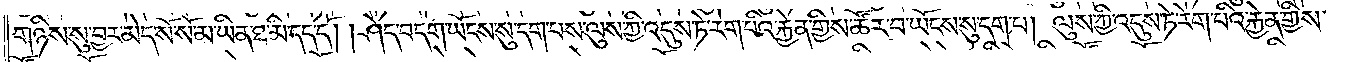གཉིས་སུ་བྱར་མེད་སོ་སོ་མ་ཡིན་ཐ་མི་དད་དོ། །ཤེད་བདག་ཡོངས་སུ་དག་པས་ལུས་ཀྱི་འདུས་ཏེ་རེག་པའི་རྐྱེན་གྱིས་ཚོར་བ་ཡོངས་སུ་དག་པ། ལུས་ཀྱི་འདུས་ཏེ་རེག་པའི་རྐྱེན་གྱིས་
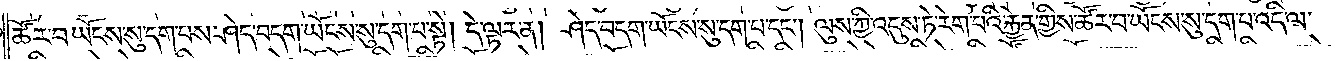ཚོར་བ་ཡོངས་སུ་དག་པས་ཤེད་བདག་ཡོངས་སུ་དག་པ་སྟེ། དེ་ལྟར་ན། ཤེད་བདག་ཡོངས་སུ་དག་པ་དང༌། ལུས་ཀྱི་འདུས་ཏེ་རེག་པའི་རྐྱེན་གྱིས་ཚོར་བ་ཡོངས་སུ་དག་པ་འདི་ལ་
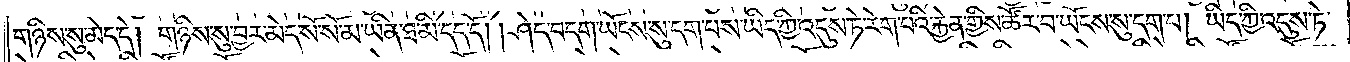གཉིས་སུ་མེད་དེ། གཉིས་སུ་བྱར་མེད་སོ་སོ་མ་ཡིན་ཐ་མི་དད་དོ། །ཤེད་བདག་ཡོངས་སུ་དག་པས་ཡིད་ཀྱི་འདུས་ཏེ་རེག་པའི་རྐྱེན་གྱིས་ཚོར་བ་ཡོངས་སུ་དག་པ། ཡིད་ཀྱི་འདུས་ཏེ་
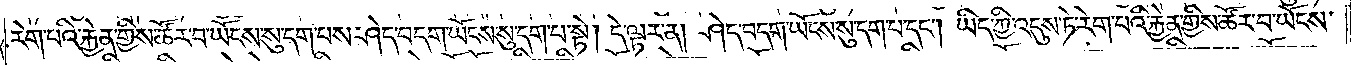རེག་པའི་རྐྱེན་གྱིས་ཚོར་བ་ཡོངས་སུ་དག་པས་ཤེད་བདག་ཡོངས་སུ་དག་པ་སྟེ། དེ་ལྟར་ན། ཤེད་བདག་ཡོངས་སུ་དག་པ་དང༌། ཡིད་ཀྱི་འདུས་ཏེ་རེག་པའི་རྐྱེན་གྱིས་ཚོར་བ་ཡོངས་
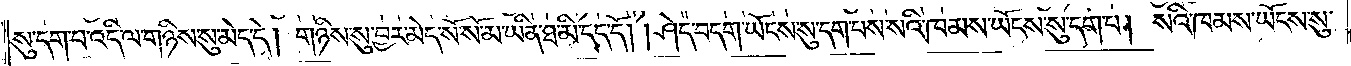སུ་དག་པ་འདི་ལ་གཉིས་སུ་མེད་དེ། གཉིས་སུ་བྱར་མེད་སོ་སོ་མ་ཡིན་ཐ་མི་དད་དོ། །ཤེད་བདག་ཡོངས་སུ་དག་པས་སའི་ཁམས་ཡོངས་སུ་དག་པ། སའི་ཁམས་ཡོངས་སུ་
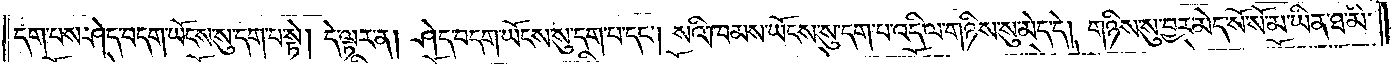དག་པས་ཤེད་བདག་ཡོངས་སུ་དག་པ་སྟེ། དེ་ལྟར་ན། ཤེད་བདག་ཡོངས་སུ་དག་པ་དང༌། སའི་ཁམས་ཡོངས་སུ་དག་པ་འདི་ལ་གཉིས་སུ་མེད་དེ། གཉིས་སུ་བྱར་མེད་སོ་སོ་མ་ཡིན་ཐ་མི་
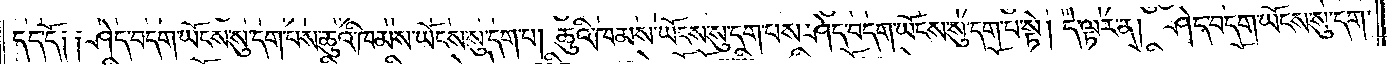དད་དོ༑ ༑ཤེད་བདག་ཡོངས་སུ་དག་པས་ཆུའི་ཁམས་ཡོངས་སུ་དག་པ། ཆུའི་ཁམས་ཡོངས་སུ་དག་པས་ཤེད་བདག་ཡོངས་སུ་དག་པ་སྟེ། དེ་ལྟར་ན། ཤེད་བདག་ཡོངས་སུ་དག་
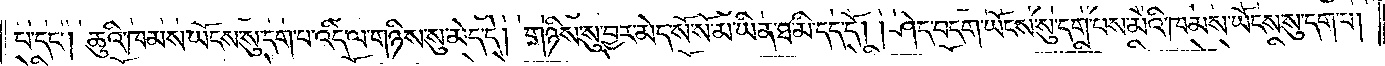པ་དང༌། ཆུའི་ཁམས་ཡོངས་སུ་དག་པ་འདི་ལ་གཉིས་སུ་མེད་དེ། གཉིས་སུ་བྱར་མེད་སོ་སོ་མ་ཡིན་ཐ་མི་དད་དོ། །ཤེད་བདག་ཡོངས་སུ་དག་པས་མེའི་ཁམས་ཡོངས་སུ་དག་པ།
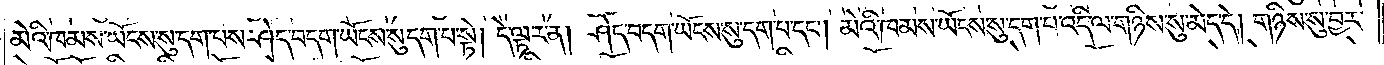མེའི་ཁམས་ཡོངས་སུ་དག་པས་ཤེད་བདག་ཡོངས་སུ་དག་པ་སྟེ། དེ་ལྟར་ན། ཤེད་བདག་ཡོངས་སུ་དག་པ་དང༌། མེའི་ཁམས་ཡོངས་སུ་དག་པ་འདི་ལ་གཉིས་སུ་མེད་དེ། གཉིས་སུ་བྱར་
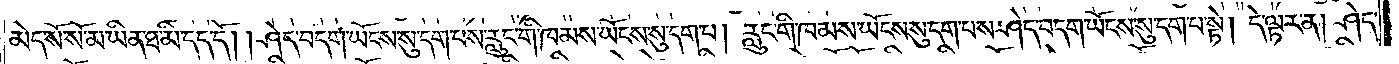མེད་སོ་སོ་མ་ཡིན་ཐ་མི་དད་དོ། །ཤེད་བདག་ཡོངས་སུ་དག་པས་རླུང་གི་ཁམས་ཡོངས་སུ་དག་པ། རླུང་གི་ཁམས་ཡོངས་སུ་དག་པས་ཤེད་བདག་ཡོངས་སུ་དག་པ་སྟེ། དེ་ལྟར་ན། ཤེད་
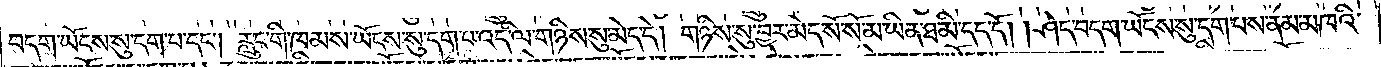བདག་ཡོངས་སུ་དག་པ་དང༌། རླུང་གི་ཁམས་ཡོངས་སུ་དག་པ་འདི་ལ་གཉིས་སུ་མེད་དེ། གཉིས་སུ་བྱར་མེད་སོ་སོ་མ་ཡིན་ཐ་མི་དད་དོ། །ཤེད་བདག་ཡོངས་སུ་དག་པས་ནམ་མཁའི་
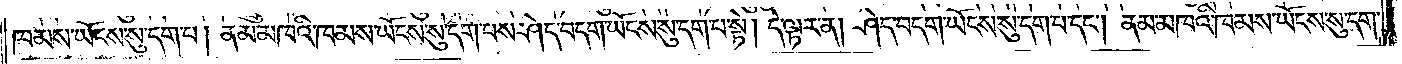ཁམས་ཡོངས་སུ་དག་པ། ནམ་མཁའི་ཁམས་ཡོངས་སུ་དག་པས་ཤེད་བདག་ཡོངས་སུ་དག་པ་སྟེ། དེ་ལྟར་ན། ཤེད་བདག་ཡོངས་སུ་དག་པ་དང༌། ནམ་མཁའི་ཁམས་ཡོངས་སུ་དག་
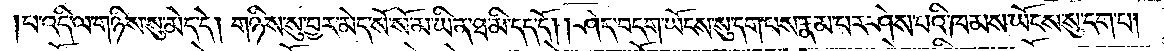པ་འདི་ལ་གཉིས་སུ་མེད་དེ། གཉིས་སུ་བྱར་མེད་སོ་སོ་མ་ཡིན་ཐ་མི་དད་དོ། །ཤེད་བདག་ཡོངས་སུ་དག་པས་རྣམ་པར་ཤེས་པའི་ཁམས་ཡོངས་སུ་དག་པ།
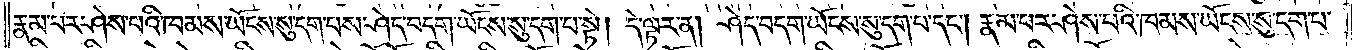རྣམ་པར་ཤེས་པའི་ཁམས་ཡོངས་སུ་དག་པས་ཤེད་བདག་ཡོངས་སུ་དག་པ་སྟེ། དེ་ལྟར་ན། ཤེད་བདག་ཡོངས་སུ་དག་པ་དང༌། རྣམ་པར་ཤེས་པའི་ཁམས་ཡོངས་སུ་དག་པ་
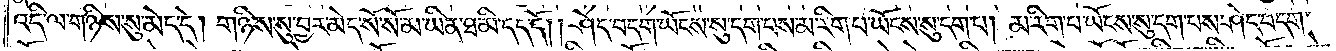འདི་ལ་གཉིས་སུ་མེད་དེ། གཉིས་སུ་བྱར་མེད་སོ་སོ་མ་ཡིན་ཐ་མི་དད་དོ། །ཤེད་བདག་ཡོངས་སུ་དག་པས་མ་རིག་པ་ཡོངས་སུ་དག་པ། མ་རིག་པ་ཡོངས་སུ་དག་པས་ཤེད་བདག་
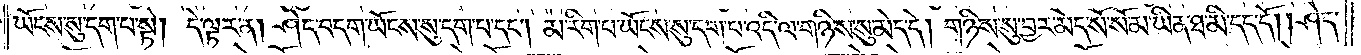ཡོངས་སུ་དག་པ་སྟེ། དེ་ལྟར་ན། ཤེད་བདག་ཡོངས་སུ་དག་པ་དང༌། མ་རིག་པ་ཡོངས་སུ་དག་པ་འདི་ལ་གཉིས་སུ་མེད་དེ། གཉིས་སུ་བྱར་མེད་སོ་སོ་མ་ཡིན་ཐ་མི་དད་དོ། །ཤེད་
